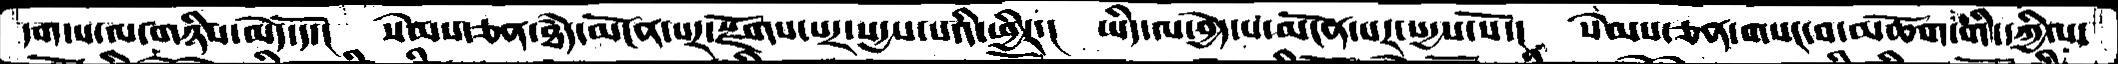དག་པ་ལ་གཉིས་མེད་དོ་།  སེམས་ཅན་ཐཾད་མངོན་པར་སྫོགས་པར་སདྱས་པའི་ཕྱིར་།  ཡིད་ལ་བྱེད་པ་མངོན་པར་སདྱས་སོ་།  སེམས་ཅན་གསང་བ་མཆོག་གི་དཀྱིལ་
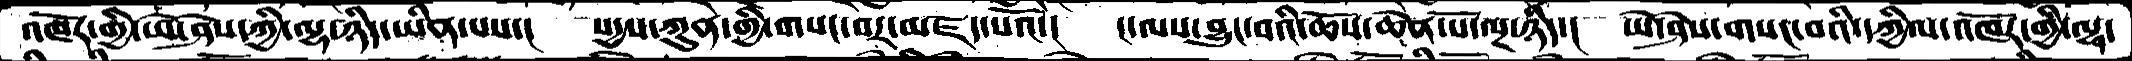འཁོར་གྱི་ཡེ་ཤེས་ཀྱི་ལྷ་ཉིད་ཡིན་པས་།  སདྱས་ཀུན་གྱི་གསང་བར་མཛད་པའོ་།  ང་ལས་བྱུང་བའི་ཆོས་ཆེན་པོ་ལྔ་ཉིད་།  ཡེ་ཤེས་གསང་བའི་དཀྱིལ་འཁོར་གྱི་ལྷ་
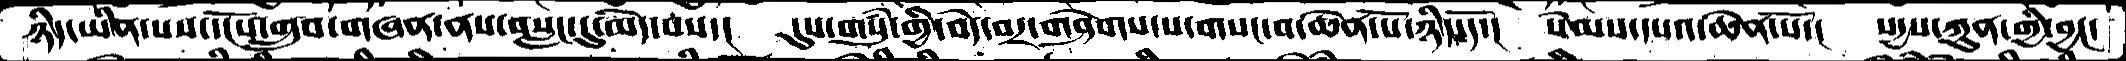ཉིད་ཡིན་པས་དངོས་གྲུབ་གཞན་ནས་བསླང་དུ་མེད་པས་།  དུས་གསུཾ་གྱི་བདེ་བར་གཤེགས་པ་གསང་བ་ཆེན་པོ་ཉིད་དོ་།  སེམསདཔའ་ཆེན་པོ་།  སདྱས་ཀུན་གྱི་བྱང་
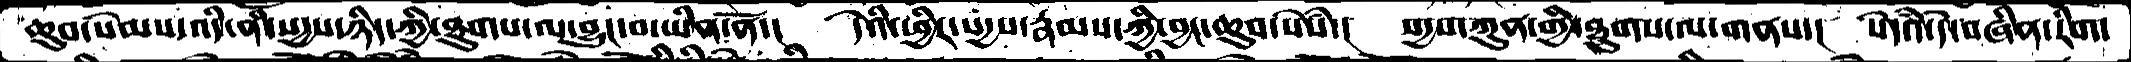ཆུབ་སེམས་འདི་ནི་སདྱས་ཉིད་ཀྱི་ཐུགས་ལ་བྱུང་བ་ཡིན་ནོ་།  དེའི་ཕྱིར་སདྱས་རྣམས་ཀྱི་བྱང་ཆུབ་སེསཾ་།  སདྱས་ཀུན་གྱི་ཐུགས་ལ་གནས་།  སེདཾའ་དེ་བཞིན་རིག་
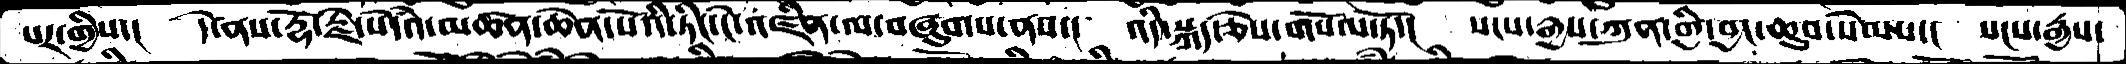པར་གྱིས་།  དེ་ནས་རྡོ་རྗེ་སེདཾའ་མཚན་ཆེན་པོའི་ཏིང་ངེ་འཛིན་ལ་བཞུགས་ནས་།  འདི་སྐད་ཅེས་གསོལ་ཏོ་།  སངས་རྒྱས་ཀུན་གྱི་བྱང་ཆུབ་སེམས་། སངས་རྒྱས་
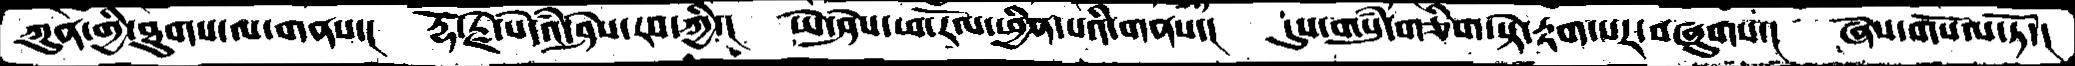ཀུན་གྱི་ཐུགས་ལ་གནས་།  རྡོ་རྗེ་སེདཾའ་ཤེས་རབ་ཀྱི་།  ཡེ་ཤེས་ཕ་རོལ་ཕྱིན་པའི་གནས་།  དུས་གསུཾ་གཅིག་སྟེ་རྟག་པར་བཞུགས་།  ཞེས་གསོལ་ཏོ་།
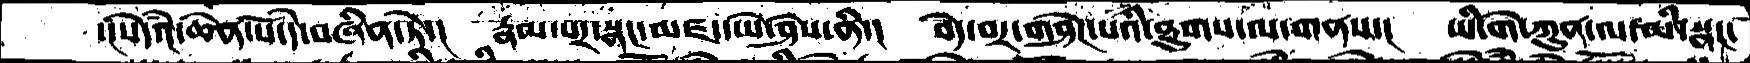་།སེདཾའ་ཆེན་པོ་དེ་བཞིན་ཏེ་།   རྣམ་པར་སྣང་མཛད་ཡེ་ཤེས་ནི་།  བདེ་བར་གཤེཌ་པའི་ཐུགས་ལ་གནས་།  ཡི་གེ་ཀུན་ལ་མི་སྣང་
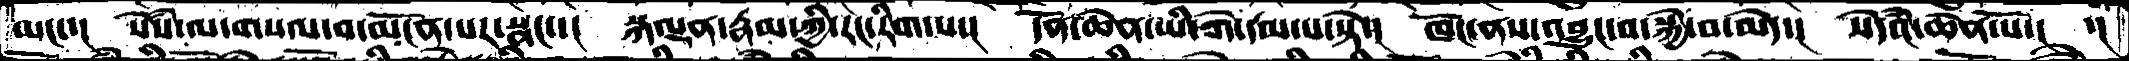མང་་།   སེཾས་ལ་གསལ་བ་མངོན་པར་སྣང་་།  སྐལྡན་རྣམ་ཀྱི་རང་རིག་པ་།  དོན་ཆེན་ཡི་གེ་དམ་པ་སྟེ་།  ཁོང་ནས་འབྱུང་བ་སྐྱེ་བ་མེད་།  སེདཾའ་ཆེན་པོ་།  ་།
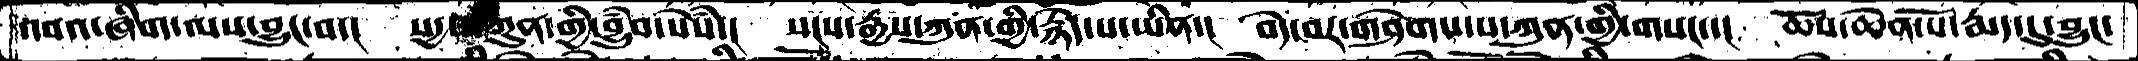འབའ་ཞིག་ལས་བྱུང་བ་།  སདྱས་ཀུན་གྱི་བྱུཾབ་སེཾས་།  སངས་རྒྱས་ཀུན་གྱི་རྙེད་པ་ཡིན་།  བདེ་བར་གཤེགས་པ་ཀུན་གྱི་གསང་་།  ཆོས་ཆེན་པོ་རྨད་དུ་བྱུང་
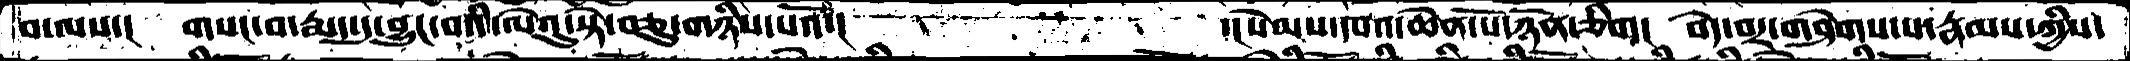བ་ལས་།   གསང་བ་རྨད་དུ་བྱུང་བའི་ལེའུ་སྟེ་བཅུ་གཉིས་པའོ་།       ་།སེམས་དཔའ་ཆེན་པོ་ཉོན་ཅིག།  བདེ་བར་གཤེགས་པ་རྣམས་ཀྱིས་
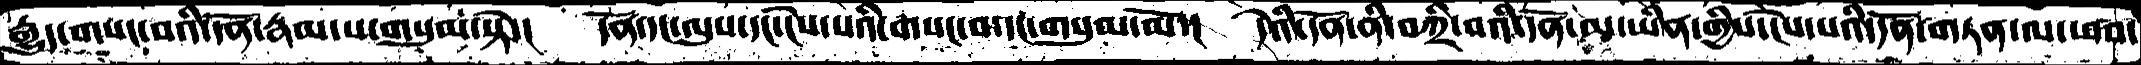རྒྱུད་གསང་བའི་དོན་རྣམ་པ་གསུམ་སྟེ་།   དོན་དང་ལུས་དང་ངེས་པའི་གསང་བ་དང་གསུམ་མོ་།   དེའི་དོན་ནི་བཀྲི་བའི་དོན་མ་ཡིན་གྱིས་ངེས་པའི་དོན་གཏན་ལ་ཕབ་
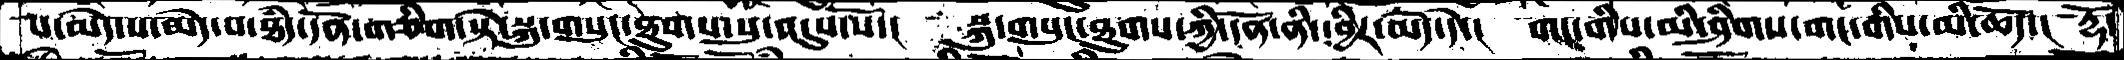པ་མེད་པ་མེད་པ་ཐཾད་དོན་གཅིག་སྟེ་སྐུ་གསུང་ཐུགས་སུ་འདུས་སོ་།   སྐུ་གསུང་ཐུགས་ཀྱི་དོན་ནི་དབྱིར་མེད་དེ་།  གང་གིས་མི་ཤིགས་གང་གིས་མི་ཆོད་།  རྡོ་
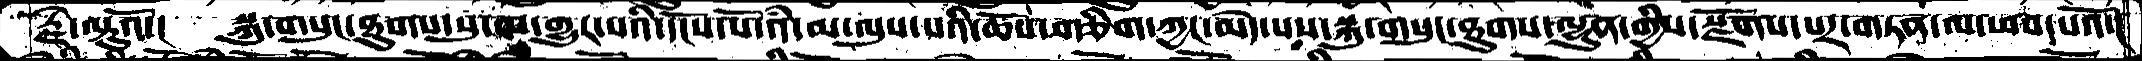རྗེ་ལྟུའོ་།   སྐུ་གསུང་ཐུགས་སུ་མ་གྱུར་པའི་དངོས་པོ་འཾ་མ་ལུས་པའི་ཆོས་གཅིག་ཀྱང་མེད་པས་སྐུ་གསུང་ཐུགས་ལྷུན་གྱིས་སྫོགས་པར་གཏན་ལ་ཕབ་པའོ་།
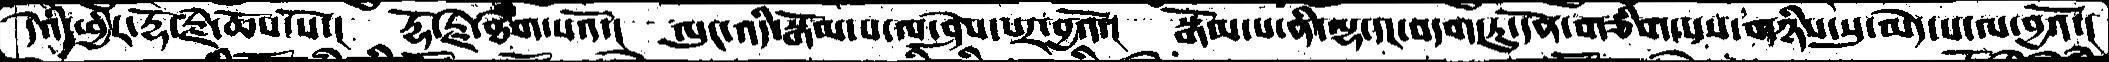དེའི་ཕྱིར་རྡོ་རྗེ་ཆོས་སོ་།   རྡོ་རྗེ་ཐེག་པའོ་།  ལུང་འདི་སྒོམ་པ་ལ་ཤེས་པར་བྱའོ་།  སྒོམ་པ་ནི་ལྷ་དང་བདག་ཏུ་དོན་གཅིག་པས་གཉིས་སུ་མེད་པ་ལ་བྱའོ་།
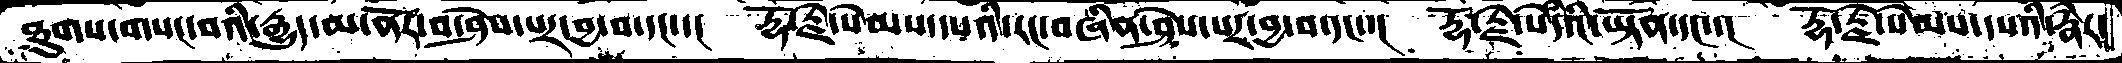ཐུགས་གསང་བའི་རྒྱུད་མ་ནོར་བ་ཤེས་པར་བྱ་བ་དང་་།  རྡོ་རྗེ་སེམས་དཔའི་རང་བཞིན་ཤེས་པར་བྱ་བ་དང་་།  རྡོ་རྗེ་སེདཾའ་ཡྟོན་དང་་།  རྡོ་རྗེ་སེམས་དཔའི་རྣཾར་
